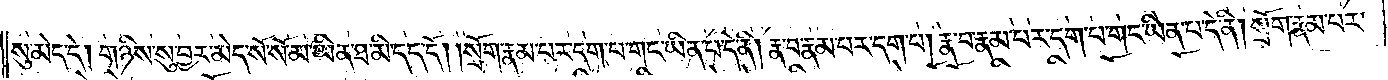སུ་མེད་དེ། གཉིས་སུ་བྱར་མེད་སོ་སོ་མ་ཡིན་ཐ་མི་དད་དོ། །སྲོག་རྣམ་པར་དག་པ་གང་ཡིན་པ་དེ་ནི། རྣ་བ་རྣམ་པར་དག་པ། རྣ་བ་རྣམ་པར་དག་པ་གང་ཡིན་པ་དེ་ནི། སྲོག་རྣམ་པར་
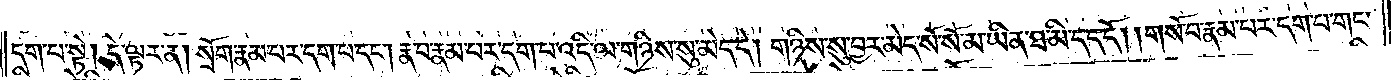དག་པ་སྟེ། དེ་ལྟར་ན། སྲོག་རྣམ་པར་དག་པ་དང༌། རྣ་བ་རྣམ་པར་དག་པ་འདི་ལ་གཉིས་སུ་མེད་དེ། གཉིས་སུ་བྱར་མེད་སོ་སོ་མ་ཡིན་ཐ་མི་དད་དོ། །གསོ་བ་རྣམ་པར་དག་པ་གང་
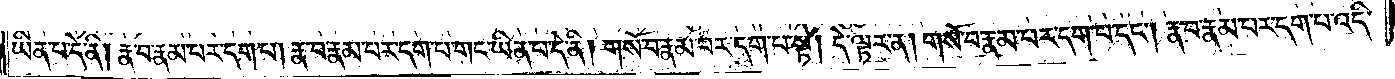ཡིན་པ་དེ་ནི། རྣ་བ་རྣམ་པར་དག་པ། རྣ་བ་རྣམ་པར་དག་པ་གང་ཡིན་པ་དེ་ནི། གསོ་བ་རྣམ་པར་དག་པ་སྟེ། དེ་ལྟར་ན། གསོ་བ་རྣམ་པར་དག་པ་དང༌། རྣ་བ་རྣམ་པར་དག་པ་འདི་
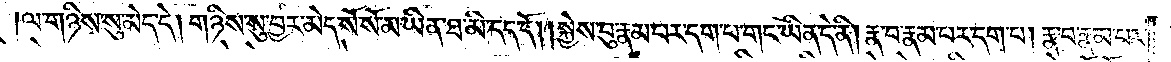ལ་གཉིས་སུ་མེད་དེ། གཉིས་སུ་བྱར་མེད་སོ་སོ་མ་ཡིན་ཐ་མི་དད་དོ། །སྐྱེས་བུ་རྣམ་པར་དག་པ་གང་ཡིན་པ་དེ་ནི། རྣ་བ་རྣམ་པར་དག་པ། རྣ་བ་རྣམ་པར་
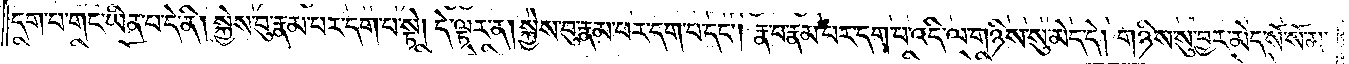དག་པ་གང་ཡིན་པ་དེ་ནི། སྐྱེས་བུ་རྣམ་པར་དག་པ་སྟེ། དེ་ལྟར་ན། སྐྱེས་བུ་རྣམ་པར་དག་པ་དང༌། རྣ་བ་རྣམ་པར་དག་པ་འདི་ལ་གཉིས་སུ་མེད་དེ། གཉིས་སུ་བྱར་མེད་སོ་སོ་མ་
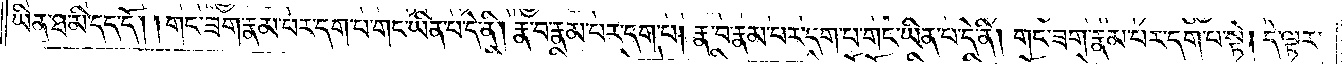ཡིན་ཐ་མི་དད་དོ། །གང་ཟག་རྣམ་པར་དག་པ་གང་ཡིན་པ་དེ་ནི། རྣ་བ་རྣམ་པར་དག་པ། རྣ་བ་རྣམ་པར་དག་པ་གང་ཡིན་པ་དེ་ནི། གང་ཟག་རྣམ་པར་དག་པ་སྟེ། དེ་ལྟར་
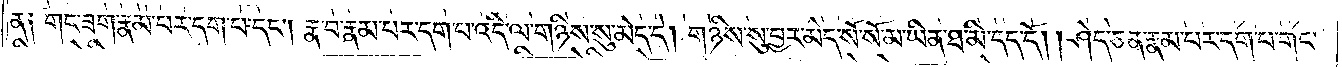ན༑ གང་ཟག་རྣམ་པར་དག་པ་དང༌། རྣ་བ་རྣམ་པར་དག་པ་འདི་ལ་གཉིས་སུ་མེད་དེ། གཉིས་སུ་བྱར་མེད་སོ་སོ་མ་ཡིན་ཐ་མི་དད་དོ། །ཤེད་ཅན་རྣམ་པར་དག་པ་གང་
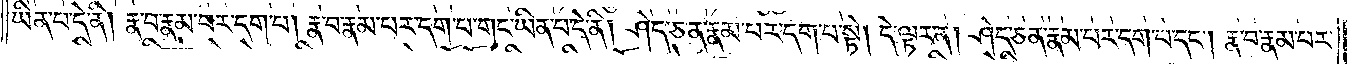ཡིན་པ་དེ་ནི། རྣ་བ་རྣམ་པར་དག་པ། རྣ་བ་རྣམ་པར་དག་པ་གང་ཡིན་པ་དེ་ནི། ཤེད་ཅན་རྣམ་པར་དག་པ་སྟེ། དེ་ལྟར་ན། ཤེད་ཅན་རྣམ་པར་དག་པ་དང༌། རྣ་བ་རྣམ་པར་
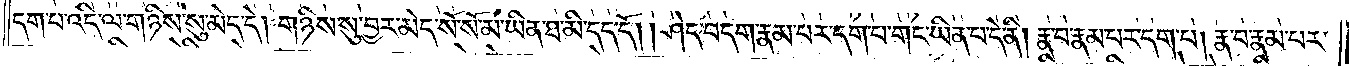དག་པ་འདི་ལ་གཉིས་སུ་མེད་དེ། གཉིས་སུ་བྱར་མེད་སོ་སོ་མ་ཡིན་ཐ་མི་དད་དེ། །ཤེད་བདག་རྣམ་པར་དག་པ་གང་ཡིན་པ་དེ་ནི། རྣ་བ་རྣམ་པར་དག་པ། རྣ་བ་རྣམ་པར་
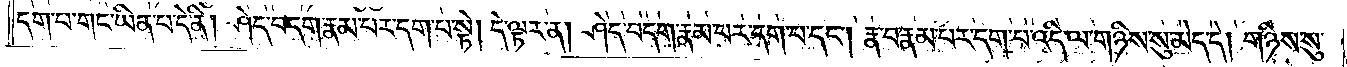དག་པ་གང་ཡིན་པ་དེ་ནི། ཤེད་བདག་རྣམ་པར་དག་པ་སྟེ། དེ་ལྟར་ན། ཤེད་བདག་རྣམ་པར་དག་པ་དང༌། རྣ་བ་རྣམ་པར་དག་པ་འདི་ལ་གཉིས་སུ་མེད་དེ། གཉིས་སུ་
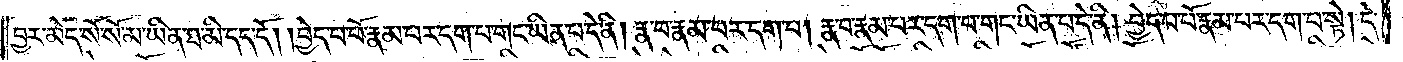བྱར་མེད་སོ་སོ་མ་ཡིན་ཐ་མི་དད་དོ། །བྱེད་པ་པོ་རྣམ་པར་དག་པ་གང་ཡིན་པ་དེ་ནི། རྣ་བ་རྣམ་པར་དག་པ། རྣ་བ་རྣམ་པར་དག་པ་གང་ཡིན་པ་དེ་ནི། བྱེད་པ་པོ་རྣམ་པར་དག་པ་སྟེ། དེ་
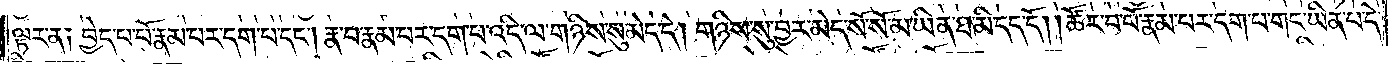ལྟར་ན༑ བྱེད་པ་པོ་རྣམ་པར་དག་པ་དང༌། རྣ་བ་རྣམ་པར་དག་པ་འདི་ལ་གཉིས་སུ་མེད་དེ། གཉིས་སུ་བྱར་མེད་སོ་སོ་མ་ཡིན་ཐ་མི་དད་དོ། །ཚོར་བ་པོ་རྣམ་པར་དག་པ་གང་ཡིན་པ་དེ་
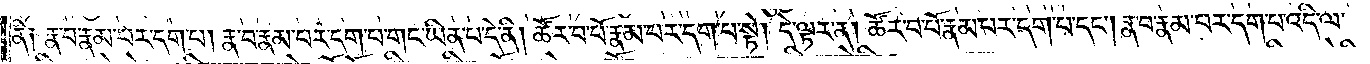ནི༑ རྣ་བ་རྣམ་པར་དག་པ། རྣ་བ་རྣམ་པར་དག་པ་གང་ཡིན་པ་དེ་ནི། ཚོར་བ་པོ་རྣམ་པར་དག་པ་སྟེ། དེ་ལྟར་ན། ཚོར་བ་པོ་རྣམ་པར་དག་པ་དང༌། རྣ་བ་རྣམ་པར་དག་པ་འདི་ལ་
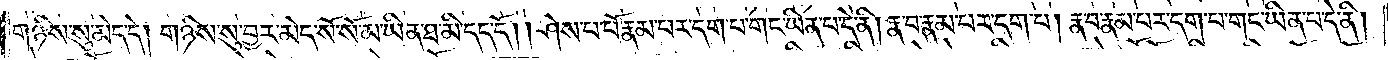གཉིས་སུ་མེད་དེ། གཉིས་སུ་བྱར་མེད་སོ་སོ་མ་ཡིན་ཐ་མི་དད་དོ། །ཤེས་པ་པོ་རྣམ་པར་དག་པ་གང་ཡིན་པ་དེ་ནི། རྣ་བ་རྣམ་པར་དག་པ། རྣ་བ་རྣམ་པར་དག་པ་གང་ཡིན་པ་དེ་ནི།
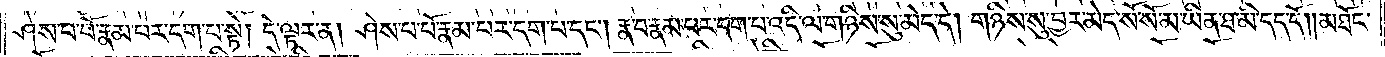ཤེས་པ་པོ་རྣམ་པར་དག་པ་སྟེ། དེ་ལྟར་ན། ཤེས་པ་པོ་རྣམ་པར་དག་པ་དང༌། རྣ་བ་རྣམ་པར་དག་པ་འདི་ལ་གཉིས་སུ་མེད་དེ། གཉིས་སུ་བྱར་མེད་སོ་སོ་མ་ཡིན་ཐ་མི་དད་དོ། །མཐོང་
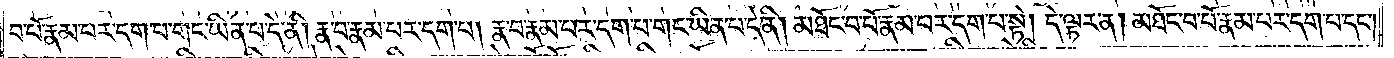བ་པོ་རྣམ་པར་དག་པ་གང་ཡིན་པ་དེ་ནི། རྣ་བ་རྣམ་པར་དག་པ། རྣ་བ་རྣམ་པར་དག་པ་གང་ཡིན་པ་དེ་ནི། མཐོང་བ་པོ་རྣམ་པར་དག་པ་སྟེ། དེ་ལྟར་ན། མཐོང་བ་པོ་རྣམ་པར་དག་པ་དང༌།
